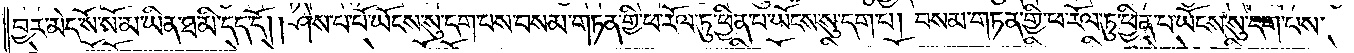བྱར་མེད་སོ་སོ་མ་ཡིན་ཐ་མི་དད་དོ། །ཤེས་པ་པོ་ཡོངས་སུ་དག་པས་བསམ་གཏན་གྱི་ཕ་རོལ་ཏུ་ཕྱིན་པ་ཡོངས་སུ་དག་པ། བསམ་གཏན་གྱི་ཕ་རོལ་ཏུ་ཕྱིན་པ་ཡོངས་སུ་དག་པས་
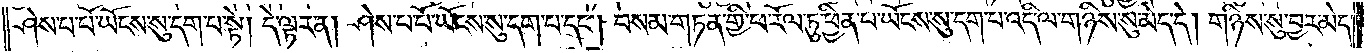ཤེས་པ་པོ་ཡོངས་སུ་དག་པ་སྟེ། དེ་ལྟར་ན། ཤེས་པ་པོ་ཡོངས་སུ་དག་པ་དང༌། བསམ་གཏན་གྱི་ཕ་རོལ་ཏུ་ཕྱིན་པ་ཡོངས་སུ་དག་པ་འདི་ལ་གཉིས་སུ་མེད་དེ། གཉིས་སུ་བྱར་མེད་
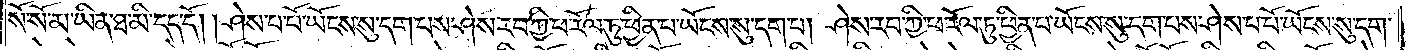སོ་སོ་མ་ཡིན་ཐ་མི་དད་དོ། །ཤེས་པ་པོ་ཡོངས་སུ་དག་པས་ཤེས་རབ་ཀྱི་ཕ་རོལ་ཏུ་ཕྱིན་པ་ཡོངས་སུ་དག་པ། ཤེས་རབ་ཀྱི་ཕ་རོལ་ཏུ་ཕྱིན་པ་ཡོངས་སུ་དག་པས་ཤེས་པ་པོ་ཡོངས་སུ་དག་
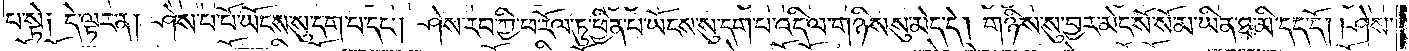པ་སྟེ། དེ་ལྟར་ན། ཤེས་པ་པོ་ཡོངས་སུ་དག་པ་དང༌། ཤེས་རབ་ཀྱི་ཕ་རོལ་ཏུ་ཕྱིན་པ་ཡོངས་སུ་དག་པ་འདི་ལ་གཉིས་སུ་མེད་དེ། གཉིས་སུ་བྱར་མེད་སོ་སོ་མ་ཡིན་ཐ་མི་དད་དོ། །ཤེས་
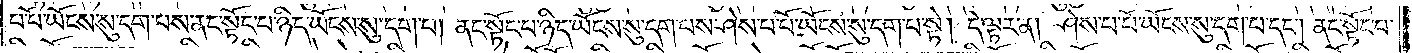པ་པོ་ཡོངས་སུ་དག་པས་ནང་སྟོང་པ་ཉིད་ཡོངས་སུ་དག་པ། ནང་སྟོང་པ་ཉིད་ཡོངས་སུ་དག་པས་ཤེས་པ་པོ་ཡོངས་སུ་དག་པ་སྟེ། དེ་ལྟར་ན། ཤེས་པ་པོ་ཡོངས་སུ་དག་པ་དང༌། ནང་སྟོང་པ་
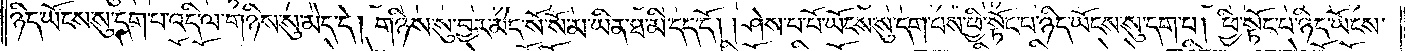ཉིད་ཡོངས་སུ་དག་པ་འདི་ལ་གཉིས་སུ་མེད་དེ། གཉིས་སུ་བྱར་མེད་སོ་སོ་མ་ཡིན་ཐ་མི་དད་དོ། །ཤེས་པ་པོ་ཡོངས་སུ་དག་པས་ཕྱི་སྟོང་པ་ཉིད་ཡོངས་སུ་དག་པ། ཕྱི་སྟོང་པ་ཉིད་ཡོངས་
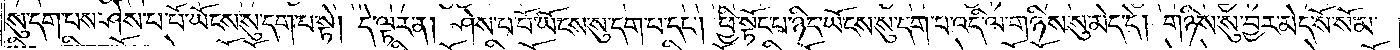སུ་དག་པས་ཤེས་པ་པོ་ཡོངས་སུ་དག་པ་སྟེ། དེ་ལྟར་ན། ཤེས་པ་པོ་ཡོངས་སུ་དག་པ་དང༌། ཕྱི་སྟོང་པ་ཉིད་ཡོངས་སུ་དག་པ་འདི་ལ་གཉིས་སུ་མེད་དེ། གཉིས་སུ་བྱར་མེད་སོ་སོ་མ་
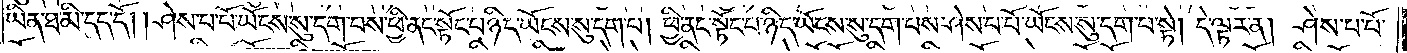ཡིན་ཐ་མི་དད་དོ། །ཤེས་པ་པོ་ཡོངས་སུ་དག་པས་ཕྱི་ནང་སྟོང་པ་ཉིད་ཡོངས་སུ་དག་པ། ཕྱི་ནང་སྟོང་པ་ཉིད་ཡོངས་སུ་དག་པས་ཤེས་པ་པོ་ཡོངས་སུ་དག་པ་སྟེ། དེ་ལྟར་ན། ཤེས་པ་པོ་
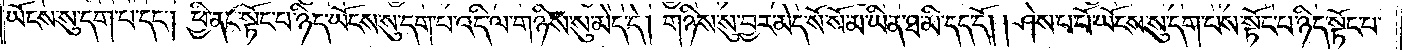ཡོངས་སུ་དག་པ་དང༌། ཕྱི་ནང་སྟོང་པ་ཉིད་ཡོངས་སུ་དག་པ་འདི་ལ་གཉིས་སུ་མེད་དེ། གཉིས་སུ་བྱར་མེད་སོ་སོ་མ་ཡིན་ཐ་མི་དད་དོ། །ཤེས་པ་པོ་ཡོངས་སུ་དག་པས་སྟོང་པ་ཉིད་སྟོང་པ་
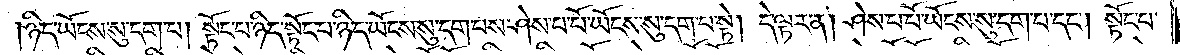ཉིད་ཡོངས་སུ་དག་པ། སྟོང་པ་ཉིད་སྟོང་པ་ཉིད་ཡོངས་སུ་དག་པས་ཤེས་པ་པོ་ཡོངས་སུ་དག་པ་སྟེ། དེ་ལྟར་ན། ཤེས་པ་པོ་ཡོངས་སུ་དག་པ་དང༌། སྟོང་པ་
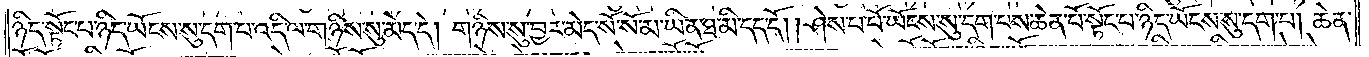ཉིད་སྟོང་པ་ཉིད་ཡོངས་སུ་དག་པ་འདི་ལ་གཉིས་སུ་མེད་དེ། གཉིས་སུ་བྱར་མེད་སོ་སོ་མ་ཡིན་ཐ་མི་དད་དོ། །ཤེས་པ་པོ་ཡོངས་སུ་དག་པས་ཆེན་པོ་སྟོང་པ་ཉིད་ཡོངས་སུ་དག་པ། ཆེན་
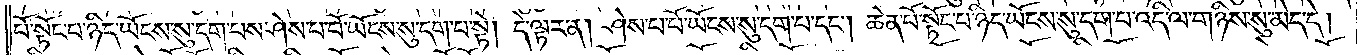པོ་སྟོང་པ་ཉིད་ཡོངས་སུ་དག་པས་ཤེས་པ་པོ་ཡོངས་སུ་དག་པ་སྟེ། དེ་ལྟར་ན། ཤེས་པ་པོ་ཡོངས་སུ་དག་པ་དང༌། ཆེན་པོ་སྟོང་པ་ཉིད་ཡོངས་སུ་དག་པ་འདི་ལ་གཉིས་སུ་མེད་དེ།
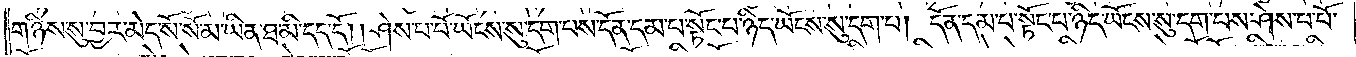གཉིས་སུ་བྱར་མད་སོ་སོ་མ་ཡིན་ཐ་མི་དད་དོ། །ཤེས་པ་པོ་ཡོངས་སུ་དག་པས་དོན་དམ་པ་སྟོང་པ་ཉིད་ཡོངས་སུ་དག་པ། དོན་དམ་པ་སྟོང་པ་ཉིད་ཡོངས་སུ་དག་པས་ཤེས་པ་པོ་
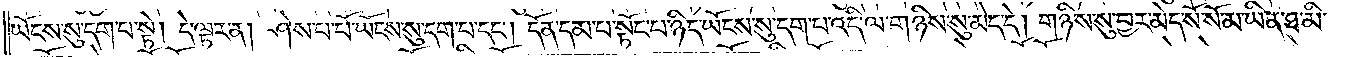ཡོངས་སུ་དག་པ་སྟེ། དེ་ལྟར་ན། ཤེས་པ་པོ་ཡོངས་སུ་དག་པ་དང༌། དོན་དམ་པ་སྟོང་པ་ཉིད་ཡོངས་སུ་དག་པ་འདི་ལ་གཉིས་སུ་མེད་དེ། གཉིས་སུ་བྱར་མེད་སོ་སོ་མ་ཡིན་ཐ་མི་
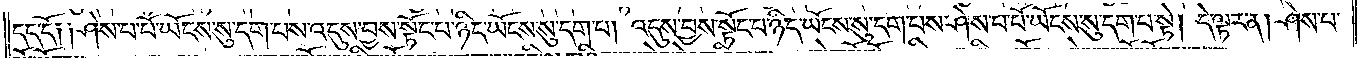དད་དོ༑ ༑ཤེས་པ་པོ་ཡོངས་སུ་དག་པས་འདུས་བྱས་སྟོང་པ་ཉིད་ཡོངས་སུ་དག་པ། འདུས་བྱས་སྟོང་པ་ཉིད་ཡོངས་སུ་དག་པས་ཤེས་པ་པོ་ཡོངས་སུ་དག་པ་སྟེ། དེ་ལྟར་ན། ཤེས་པ་
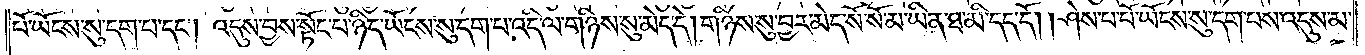པོ་ཡོངས་སུ་དག་པ་དང༌། འདུས་བྱས་སྟོང་པ་ཉིད་ཡོངས་སུ་དག་པ་འདི་ལ་གཉིས་སུ་མེད་དེ། གཉིས་སུ་བྱར་མེད་སོ་སོ་མ་ཡིན་ཐ་མི་དད་དོ། །ཤེས་པ་པོ་ཡོངས་སུ་དག་པས་འདུས་མ་
